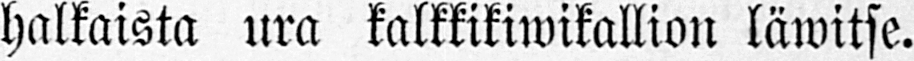halkaista ura kalkkikiwikallion läwitse.
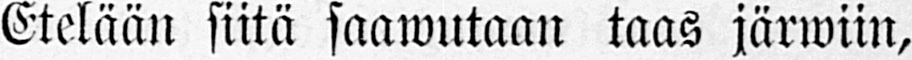Etelään siitä saawutaan taas järwiin,
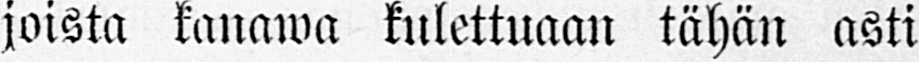joista kanawa kulettuaan tähän asti
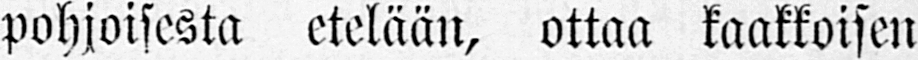pohjoisesta etelään, ottaa kaakkoisen
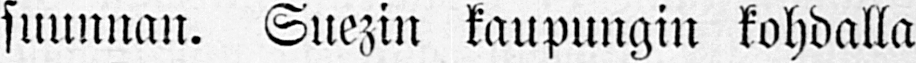suunnan. Suezin kaupungin kohdalla
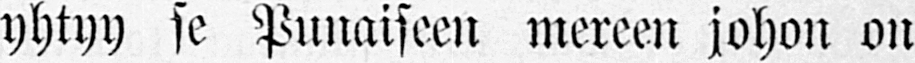yhtyy se Punaiseen mereen johon on
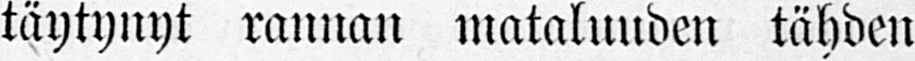täytynyt rannan mataluuden tähden
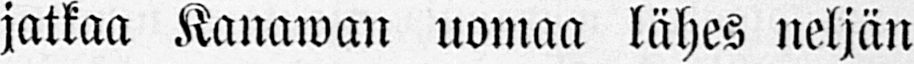jatkaa Kanawan uomaa lähes neljän
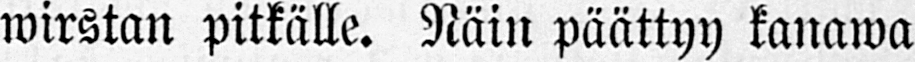wirstan pitkälle. Näin päättyy kanawa
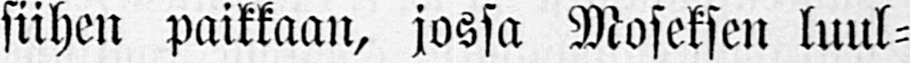siihen paikkaan, jossa Moseksen luul-
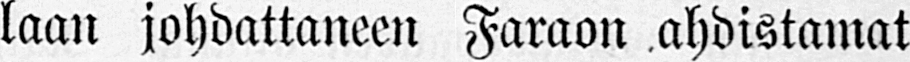laan johdattaneen Faraon ahdistamat
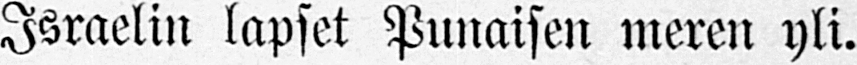Israelin lapset Punaisen meren yli.
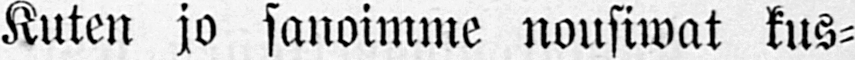Kuten jo sanoimme nousiwat kus-
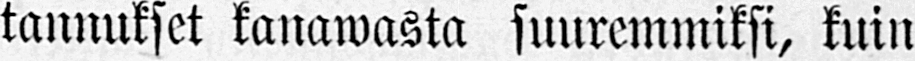tannukset kanawasta suuremmiksi, kuin
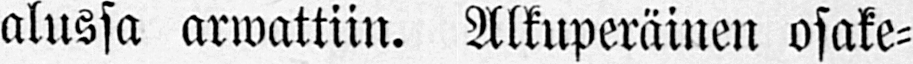alussa arwattiin. Alkuperäinen osake-
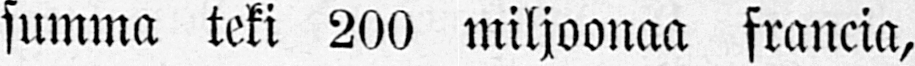summa teki 200 miljoonaa francia,
